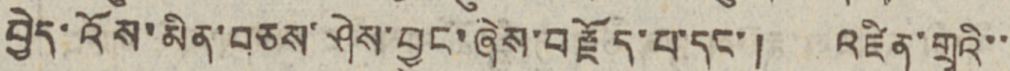བྱེད་འོས་མིན་བཅས་ཤེས་བྱུང་ཞེས་བརྗོད་པ་དང་། འཛིན་གྲྭའི་་
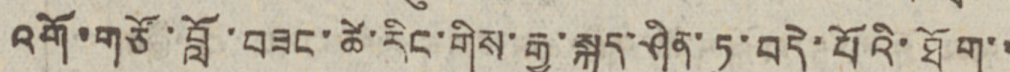འགོ་གཙོ་བློ་བཟང་ཚེ་རིང་གིས་རྒྱ་སྐད་ཤིན་ཏུ་བདེ་པོའི་ཐོག་་
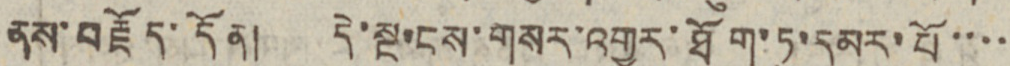ནས་བརྗོད་དོན། དེ་སྔ་ངས་གསར་འགྱུར་ཐོག་ཏུ་དམར་པོ་་་་
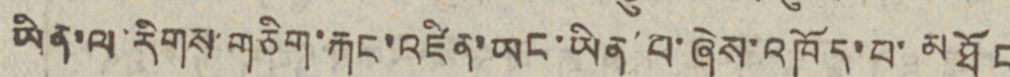ཡིན་ལ་རིགས་གཅིག་རྐང་འཛིན་ཡང་ཡིན་པ་ཞེས་འཁོད་པ་མཐོང
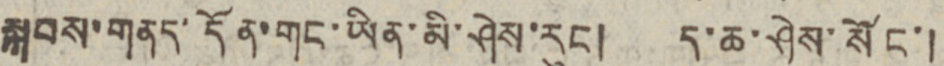སྐབས་གནད་དོན་གང་ཡིན་མི་ཤེས་རུང། ད་ཆ་ཤེས་སོང་།
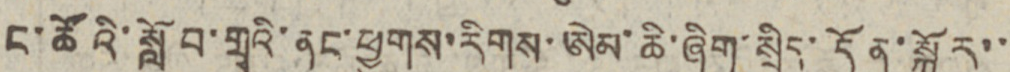ང་ཚོའི་སློབ་གྲྭའི་ནང་ཕྱུགས་རིགས་ཨེམ་ཆི་ཞིག་སྲིད་དོན་སྐོར་་
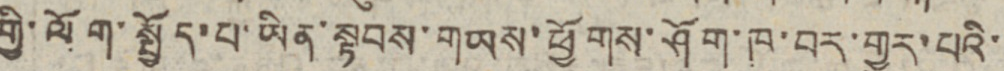གྱི་ལོག་སྤྱོད་པ་ཡིན་སྟབས་གཡས་ཕྱོགས་ཤོག་ཁ་བར་གྱུར་པའི་
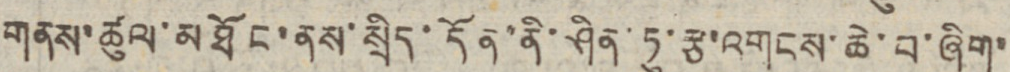གནས་ཚུལ་མཐོང་ནས་སྲིད་དོན་ནི་ཤིན་ཏུ་རྩ་འགངས་ཆེ་བ་ཞིག་
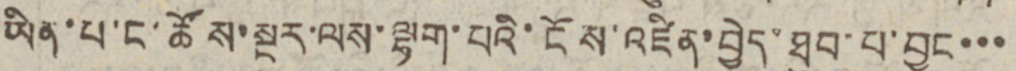ཡིན་པ་ང་ཚོས་སྔར་ལས་ལྷག་པའི་ངོས་འཛིན་བྱེད་ཐུབ་པ་བྱུང་་་
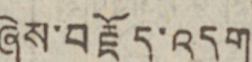ཞེས་བརྗོད་འདུག
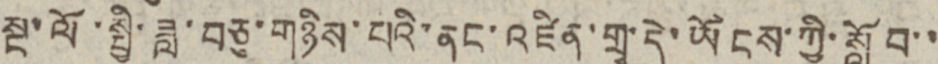སྔ་ལོ་སྤྱི་ཟླ་བཅུ་གཉིས་པའི་ནང་འཛིན་གྲྭ་དེ་ཡོངས་ཀྱི་སློབ་་
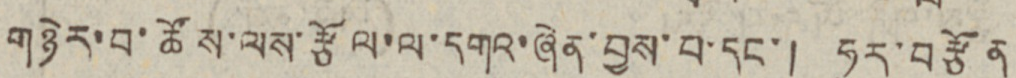གཉེར་བ་ཚོས་ལས་རྩོལ་ལ་དགའ་ཞེན་བྱས་པ་དང་། ཧུར་བརྩོན
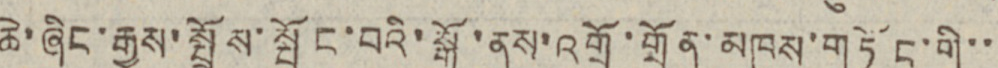ཆེ་ཞིང་རྒྱས་སྤྲོས་སྤོང་བའི་སྒོ་ནས་འགྲོ་གྲོན་མཁས་གཏོང་གི་་
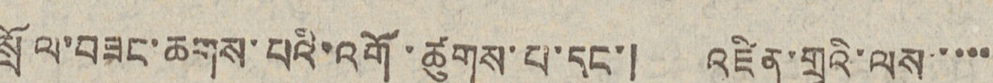སྲོལ་བཟང་ཆགས་པའི་འགོ་ཚུགས་པ་དང་། འཛིན་གྲྭའི་ལས་་་་་
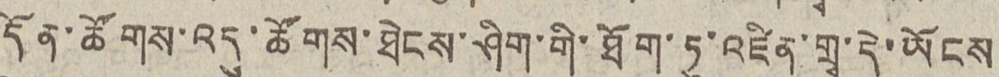དོན་ཚོགས་འདུ་ཚོགས་ཐེངས་ཤིག་གི་ཐོག་ཏུ་འཛིན་གྲྭ་དེ་ཡོངས
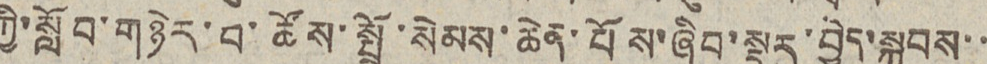ཀྱི་སློབ་གཉེར་བ་ཚོས་སྤྲོ་སེམས་ཆེན་པོས་ཞིབ་སྡུར་བྱེད་སྐབས་་
